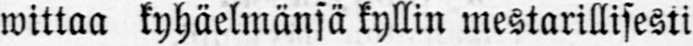wittaa kyhäelmänsä kyllin mestarillisesti
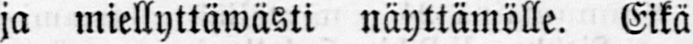ja miellyttäwästi näyttämölle. Eikä
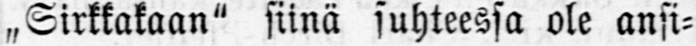„Sirkkakaan" siinä suhteessa ole ansi-
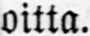oitta.
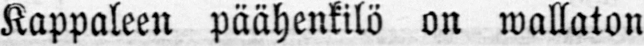Kappaleen päähenkilö on wallaton
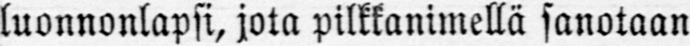luonnonlapsi, jota pilkkanimellä sanotaan
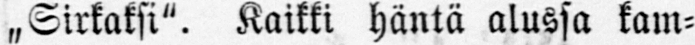„ Sirkaksi". Kaikki häntä alussa kam-
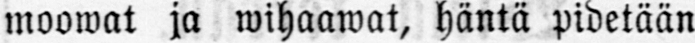mooawat ja wihaawat, häntä pidetään
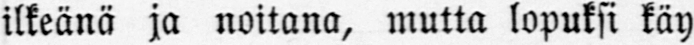ilkeänä ja noitana, mutta lopuksi käy
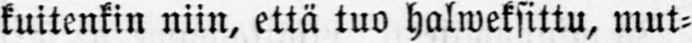kuitenkin niin, että tuo halweksittu, mut-
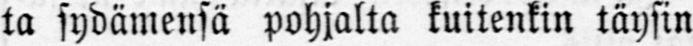ta sydämensä pohjalta kuitenkin täysin
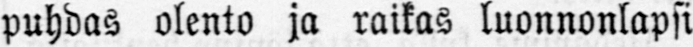puhdas olento ja raikas luonnonlapsi
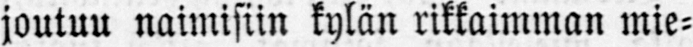joutuu naimisiin kylän rikkaimman mie-
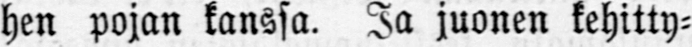hen pojan kanssa. Ja juonen kehitty-
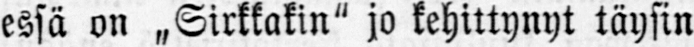essä on „ Sirkkakin" jo kehittynyt täysin
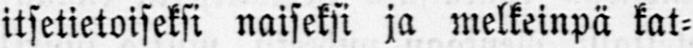itsetietoiseksi naiseksi ja melkeinpä kat-
